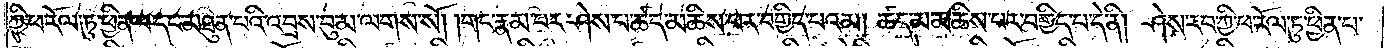ཀྱི་ཕ་རོལ་ཏུ་ཕྱིན་པ་དང་མཐུན་པའི་འབྲས་བུ་མ་ལགས་སོ། །གང་རྣམ་པར་ཤེས་པ་ཚད་མཆིས་པར་བགྱིད་པའམ། ཚད་མ་མཆིས་པར་བགྱིད་པ་དེ་ནི། ཤེས་རབ་ཀྱི་ཕ་རོལ་ཏུ་ཕྱིན་པ་
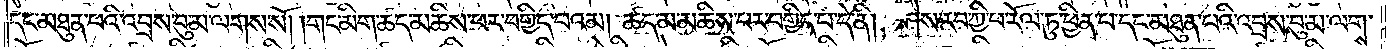དང་མཐུན་པའི་འབྲས་བུ་མ་ལགས་སོ། །གང་མིག་ཚད་མཆིས་པར་བགྱིད་པའམ། ཚད་མ་མཆིས་པར་བགྱིད་པ་དེ་ནི། ཤེས་རབ་ཀྱི་ཕ་རོལ་ཏུ་ཕྱིན་པ་དང་མཐུན་པའི་འབྲས་བུ་མ་ལགས་
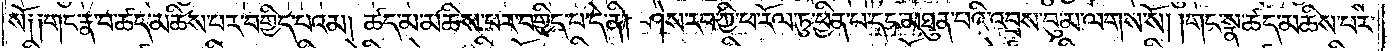སོ༑ ༑གང་རྣ་བ་ཚད་མཆིས་པར་བགྱིད་པའམ། ཚད་མ་མཆིས་པར་བགྱིད་པ་དེ་ནི། ཤེས་རབ་ཀྱི་ཕ་རོལ་ཏུ་ཕྱིན་པ་དང་མཐུན་པའི་འབྲས་བུ་མ་ལགས་སོ། །གང་སྣ་ཚད་མཆིས་པར་
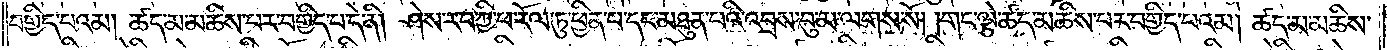བགྱིད་པའམ། ཚད་མ་མཆིས་པར་བགྱིད་པ་དེ་ནི། ཤེས་རབ་ཀྱི་ཕ་རོལ་ཏུ་ཕྱིན་པ་དང་མཐུན་པའི་འབྲས་བུ་མ་ལགས་སོ། །གང་ལྕེ་ཚད་མཆིས་པར་བགྱིད་པའམ། ཚད་མ་མཆིས་
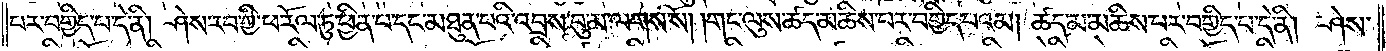པར་བགྱིད་པ་དེ་ནི། ཤེས་རབ་ཀྱི་ཕ་རོལ་ཏུ་ཕྱིན་པ་དང་མཐུན་པའི་འབྲས་བུ་མ་ལགས་སོ། །གང་ལུས་ཚད་མཆིས་པར་བགྱིད་པའམ། ཚད་མ་མཆིས་པར་བགྱིད་པ་དེ་ནི། ཤེས་
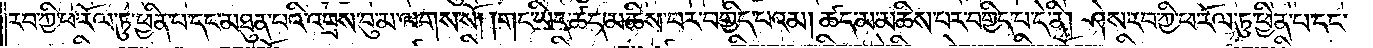རབ་ཀྱི་ཕ་རོལ་ཏུ་ཕྱིན་པ་དང་མཐུན་པའི་འབྲས་བུ་མ་ལགས་སོ། །གང་ཡིད་ཚད་མཆིས་པར་བགྱིད་པའམ། ཚད་མ་མཆིས་པར་བགྱིད་པ་དེ་ནི། ཤེས་རབ་ཀྱི་ཕ་རོལ་ཏུ་ཕྱིན་པ་དང་
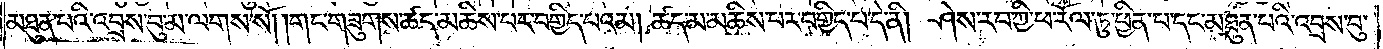མཐུན་པའི་འབྲས་བུ་མ་ལགས་སོ། །གང་གཟུགས་ཚད་མཆིས་པར་བགྱིད་པའམ། ཚད་མ་མཆིས་པར་བགྱིད་པ་དེ་ནི། ཤེས་རབ་ཀྱི་ཕ་རོལ་ཏུ་ཕྱིན་པ་དང་མཐུན་པའི་འབྲས་བུ་
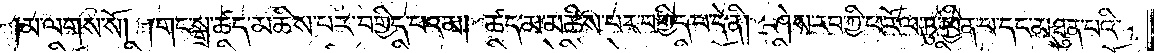མ་ལགས་སོ། །གང་སྒྲ་ཚད་མཆིས་པར་བགྱིད་པའམ། ཚད་མ་མཆིས་པར་བགྱིད་པ་དེ་ནི། ཤེས་རབ་ཀྱི་ཕ་རོལ་ཏུ་ཕྱིན་པ་དང་མཐུན་པའི་
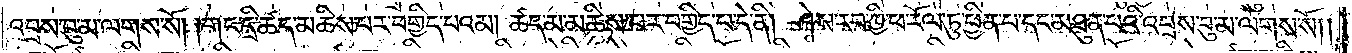འབྲས་བུ་མ་ལགས་སོ། །གང་དྲི་ཚད་མཆིས་པར་བགྱིད་པའམ། ཚད་མ་མཆིས་པར་བགྱིད་པ་དེ་ནི། ཤེས་རབ་ཀྱི་ཕ་རོལ་ཏུ་ཕྱིན་པ་དང་མཐུན་པའི་འབྲས་བུ་མ་ལགས་སོ། །
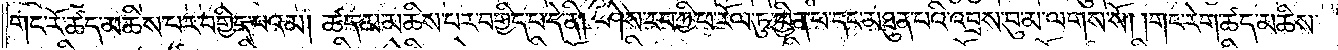གང་རོ་ཚད་མཆིས་པར་བགྱིད་པའམ། ཚད་མ་མཆིས་པར་བགྱིད་པ་དེ་ནི། ཤེས་རབ་ཀྱི་ཕ་རོལ་ཏུ་ཕྱིན་པ་དང་མཐུན་པའི་འབྲས་བུ་མ་ལགས་སོ། །གང་རེག་ཚད་མཆིས་
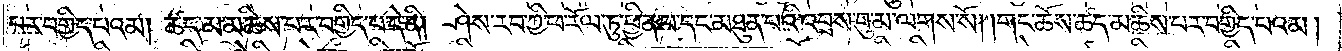པར་བགྱིད་པའམ། ཚད་མ་མཆིས་པར་བགྱིད་པ་དེ་ནི། ཤེས་རབ་ཀྱི་ཕ་རོལ་ཏུ་ཕྱིན་པ་དང་མཐུན་པའི་འབྲས་བུ་མ་ལགས་སོ། །གང་ཆོས་ཚད་མཆིས་པར་བགྱིད་པའམ།
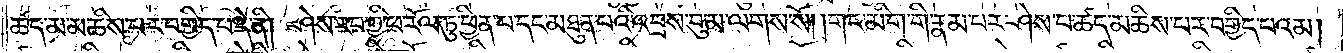ཚད་མ་མཆིས་པར་བགྱིད་པ་དེ་ནི། ཤེས་རབ་ཀྱི་ཕ་རོལ་ཏུ་ཕྱིན་པ་དང་མཐུན་པའི་འབྲས་བུ་མ་ལགས་སོ། །གང་མིག་གི་རྣམ་པར་ཤེས་པ་ཚད་མཆིས་པར་བགྱིད་པའམ།
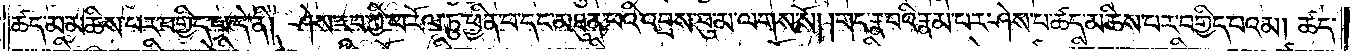ཚད་མ་མཆིས་པར་བགྱིད་པ་དེ་ནི། ཤེས་རབ་ཀྱི་ཕ་རོལ་ཏུ་ཕྱིན་པ་དང་མཐུན་པའི་འབྲས་བུ་མ་ལགས་སོ། །གང་རྣ་བའི་རྣམ་པར་ཤེས་པ་ཚད་མཆིས་པར་བགྱིད་པའམ། ཚད་
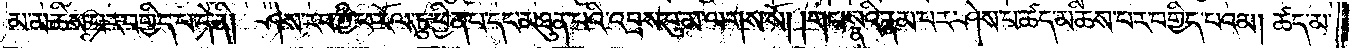མ་མཆིས་པར་བགྱིད་པ་དེ་ནི། ཤེས་རབ་ཀྱི་ཕ་རོལ་ཏུ་ཕྱིན་པ་དང་མཐུན་པའི་འབྲས་བུ་མ་ལགས་སོ། །གང་སྣའི་རྣམ་པར་ཤེས་པ་ཚད་མཆིས་པར་བགྱིད་པའམ། ཚད་མ་
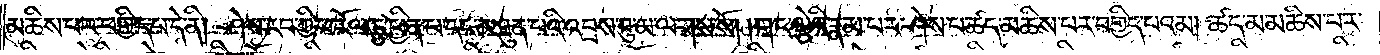མཆིས་པར་བགྱིད་པ་དེ་ནི། ཤེས་རབ་ཀྱི་ཕ་རོལ་ཏུ་ཕྱིན་པ་དང་མཐུན་པའི་འབྲས་བུ་མ་ལགས་སོ། །གང་ལྕེའི་རྣམ་པར་ཤེས་པ་ཚད་མཆིས་པར་བགྱིད་པའམ། ཚད་མ་མཆིས་པར་
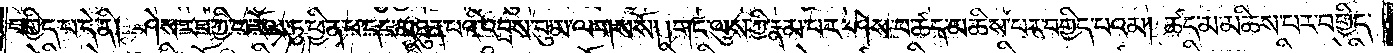བགྱིད་པ་དེ་ནི། ཤེས་རབ་ཀྱི་ཕ་རོལ་ཏུ་ཕྱིན་པ་དང་མཐུན་པའི་འབྲས་བུ་མ་ལགས་སོ། །གང་ལུས་ཀྱི་རྣམ་པར་ཤེས་པ་ཚད་མཆིས་པར་བགྱིད་པའམ། ཚད་མ་མཆིས་པར་བགྱིད་
